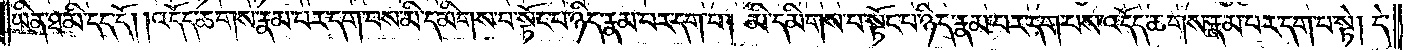ཡིན་ཐ་མི་དད་དོ། །འདོད་ཆགས་རྣམ་པར་དག་པས་མི་དམིགས་པ་སྟོང་པ་ཉིད་རྣམ་པར་དག་པ། མི་དམིགས་པ་སྟོང་པ་ཉིད་རྣམ་པར་དག་པས་འདོད་ཆགས་རྣམ་པར་དག་པ་སྟེ། དེ་
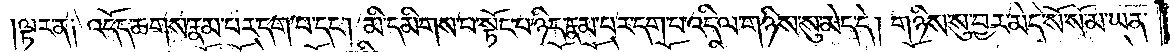ལྟར་ན༑ འདོད་ཆགས་རྣམ་པར་དག་པ་དང༌། མི་དམིགས་པ་སྟོང་པ་ཉིད་རྣམ་པར་དག་པ་འདི་ལ་གཉིས་སུ་མེད་དེ། གཉིས་སུ་བྱར་མེད་སོ་སོ་མ་ཡིན་
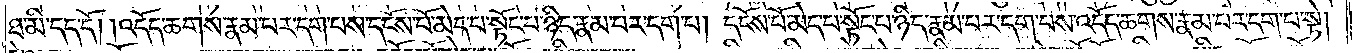ཐ་མི་དད་དོ། །འདོད་ཆགས་རྣམ་པར་དག་པས་དངོས་པོ་མེད་པ་སྟོང་པ་ཉིད་རྣམ་པར་དག་པ། དངོས་པོ་མེད་པ་སྟོང་པ་ཉིད་རྣམ་པར་དག་པས་འདོད་ཆགས་རྣམ་པར་དག་པ་སྟེ།
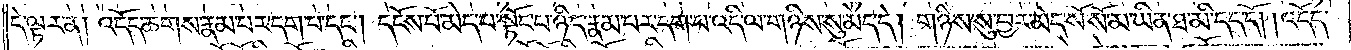དེ་ལྟར་ན། འདོད་ཆགས་རྣམ་པར་དག་པ་དང༌། དངོས་པ་མེད་པ་སྟོང་པ་ཉིད་རྣམ་པར་དག་པ་འདི་ལ་གཉིས་སུ་མེད་དེ། གཉིས་སུ་བྱར་མེད་སོ་སོ་མ་ཡིན་ཐ་མི་དད་དོ། །འདོད་
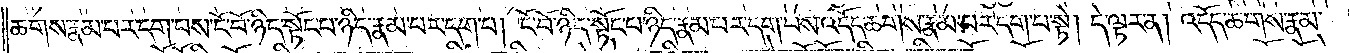ཆགས་རྣམ་པར་དག་པས་ངོ་བོ་ཉིད་སྟོང་པ་ཉིད་རྣམ་པར་དག་པ། ངོ་བོ་ཉིད་སྟོང་པ་ཉིད་རྣམ་པར་དག་པས་འདོད་ཆགས་རྣམ་པར་དག་པ་སྟེ། དེ་ལྟར་ན། འདོད་ཆགས་རྣམ་
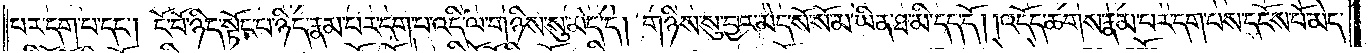པར་དག་པ་དང༌། ངོ་བོ་ཉིད་སྟོང་པ་ཉིད་རྣམ་པར་དག་པ་འདི་ལ་གཉིས་སུ་མེད་དེ། གཉིས་སུ་བྱར་མེད་སོ་སོ་མ་ཡིན་ཐ་མི་དད་དོ། །འདོད་ཆགས་རྣམ་པར་དག་པས་དངོས་པོ་མེད་
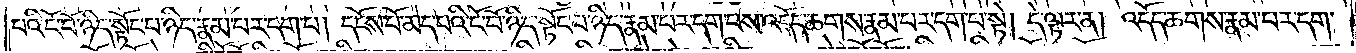པའི་ངོ་བོ་ཉིད་སྟོང་པ་ཉིད་རྣམ་པར་དག་པ། དངོས་པོ་མེད་པའི་ངོ་བོ་ཉིད་སྟོང་པ་ཉིད་རྣམ་པར་དག་པས་འདོད་ཆགས་རྣམ་པར་དག་པ་སྟེ། དེ་ལྟར་ན། འདོད་ཆགས་རྣམ་པར་དག་
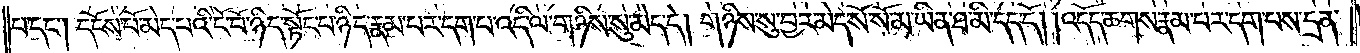པ་དང༌། དངོས་པོ་མེད་པའི་ངོ་བོ་ཉིད་སྟོང་པ་ཉིད་རྣམ་པར་དག་པ་འདི་ལ་གཉིས་སུ་མེད་དེ། གཉིས་སུ་བྱར་མེད་སོ་སོ་མ་ཡིན་ཐ་མི་དད་དོ། །འདོད་ཆགས་རྣམ་པར་དག་པས་དྲན་
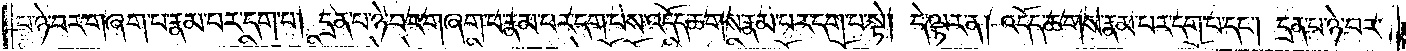པ་ཉེ་བར་གཞག་པ་རྣམ་པར་དག་པ། དྲན་པ་ཉེ་བར་གཞག་པ་རྣམ་པར་དག་པས་འདོད་ཆགས་རྣམ་པར་དག་པ་སྟེ། དེ་ལྟར་ན། འདོད་ཆགས་རྣམ་པར་དག་པ་དང༌། དྲན་པ་ཉེ་བར་
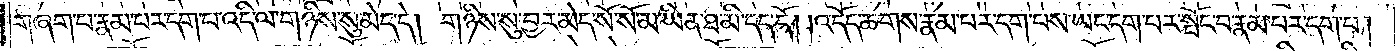གཞག་པ་རྣམ་པར་དག་པ་འདི་ལ་གཉིས་སུ་མེད་དེ། གཉིས་སུ་བྱར་མེད་སོ་སོ་མ་ཡིན་ཐ་མི་དད་དོ། །འདོད་ཆགས་རྣམ་པར་དག་པས་ཡང་དག་པར་སྤོང་པ་རྣམ་པར་དག་པ།
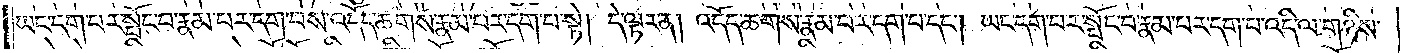ཡང་དག་པར་སྤོང་པ་རྣམ་པར་དག་པས་འདོད་ཆགས་རྣམ་པར་དག་པ་སྟེ། དེ་ལྟར་ན། འདོད་ཆགས་རྣམ་པར་དག་པ་དང༌། ཡང་དག་པར་སྤོང་བ་རྣམ་པར་དག་པ་འདི་ལ་གཉིས་
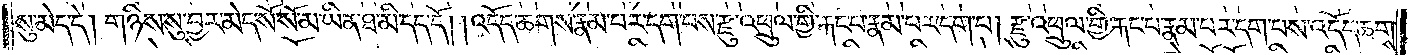སུ་མེད་དེ། གཉིས་སུ་བྱར་མེད་སོ་སོ་མ་ཡིན་ཐ་མི་དད་དོ། །འདོད་ཆགས་རྣམ་པར་དག་པས་རྫུ་འཕྲུལ་གྱི་རྐང་པ་རྣམ་པར་དག་པ། རྫུ་འཕྲུལ་གྱི་རྐང་པ་རྣམ་པར་དག་པས་འདོད་ཆགས་
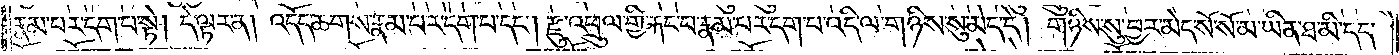རྣམ་པར་དག་པ་སྟེ། དེ་ལྟར་ན། འདོད་ཆགས་རྣམ་པར་དག་པ་དང༌། རྫུ་འཕྲུལ་གྱི་རྐང་པ་རྣམ་པར་དག་པ་འདི་ལ་གཉིས་སུ་མེད་དེ། གཉིས་སུ་བྱར་མེད་སོ་སོ་མ་ཡིན་ཐ་མི་དད་
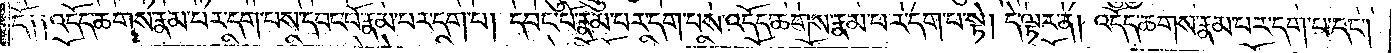དོ༑ ༑འདོད་ཆགས་རྣམ་པར་དག་པས་དབང་པོ་རྣམ་པར་དག་པ། དབང་པོ་རྣམ་པར་དག་པས་འདོད་ཆགས་རྣམ་པར་དག་པ་སྟེ། དེ་ལྟར་ན། འདོད་ཆགས་རྣམ་པར་དག་པ་དང༌།
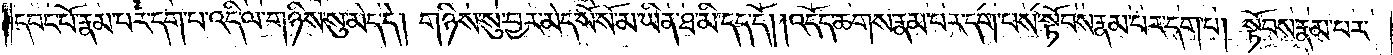དབང་པོ་རྣམ་པར་དག་པ་འདི་ལ་གཉིས་སུ་མེད་དེ། གཉིས་སུ་བྱར་མེད་སོ་སོ་མ་ཡིན་ཐ་མི་དད་དོ། །འདོད་ཆགས་རྣམ་པར་དག་པས་སྟོབས་རྣམ་པར་དག་པ། སྟོབས་རྣམ་པར་
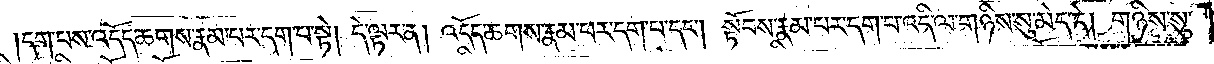དག་པས་འདོད་ཆགས་རྣམ་པར་དག་པ་སྟེ། དེ་ལྟར་ན། འདོད་ཆགས་རྣམ་པར་དག་པ་དང༌། སྟོབས་རྣམ་པར་དག་པ་འདི་ལ་གཉིས་སུ་མེད་དེ། གཉིས་སུ་
